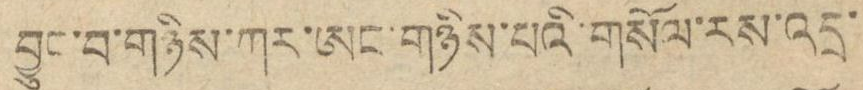བྱུང་བ་གཉིས་ཀར་ཨང་གཉིས་པའི་གསོལ་རས་འདྲ་
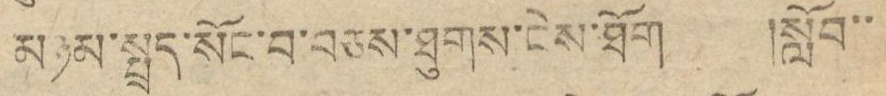མཉམ་སྤྲད་སོང་བ་བཅས་ཐུགས་ངེས་ཐོག །སློབ་་
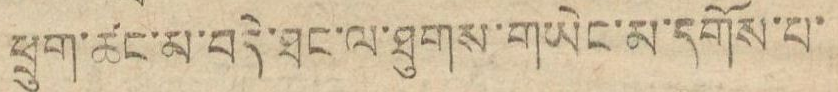ཕྲུག་ཚང་མ་བདེ་ཐང་ལ་ཐུགས་གཡེང་མ་དགོས་པ་
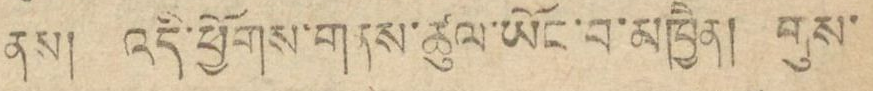ནས། འདི་ཕྱོགས་གནས་ཚུལ་ཡོང་བ་མཁྱེན། གུས་
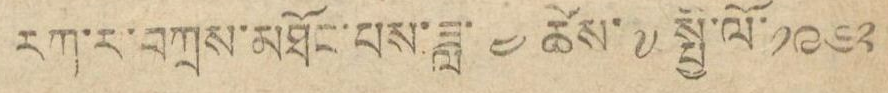རཀ་ར་བཀྲས་མཐོང་པས་ཟླ་ ༤ ཚེས་ ༧ སྤྱི་ལོ་ ༡༩༦༢
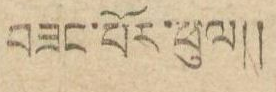བཟང་པོར་ཕུལ།།
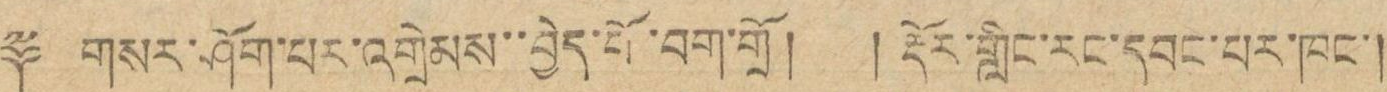༈ གསར་ཤོག་པར་འགྲེམས་་བྱེད་པོ་བག་གྲོ། །རྡོར་གླིང་རང་དབང་པར་ཁང་།
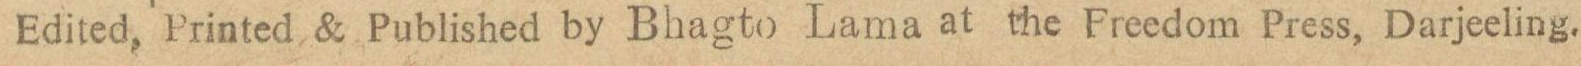Edited, Printed & Published by Bhagto Lama at the Freedom Press, Darjeeling.
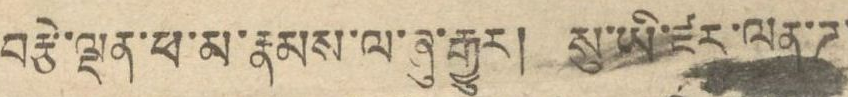བརྩེ་ལྡན་ཕ་མ་རྣམས་ལ་ཞུ་རྒྱུར། སུ་ཡི་ཛར་ལན་ཌ་
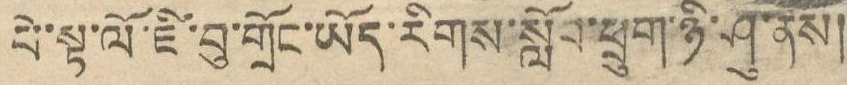པེ་སྟ་ལོ་ཇི་བུ་གྲོང་ཡོད་རིགས་སློབ་ཕྲུག་ཉི་ཤུ་ནས།
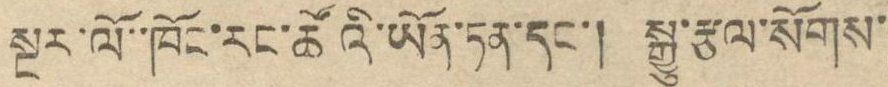སྔར་ལོ་ཁོང་རང་ཚོའི་ཡོན་ཏན་དང་། སྒྱུ་རྩལ་སོགས་
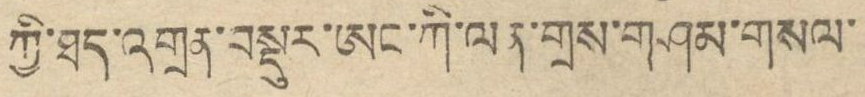ཀྱི་ཐད་འགྲན་བསྡུར་ཨང་ཀི་ལན་གྲས་གཤམ་གསལ་
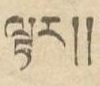ལྟར།།
